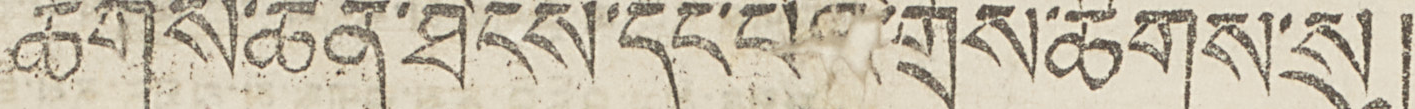ཚོགས་ཆེན་ཐེངས་དང་པོའི་གྲོས་ཚོགས་སུ།
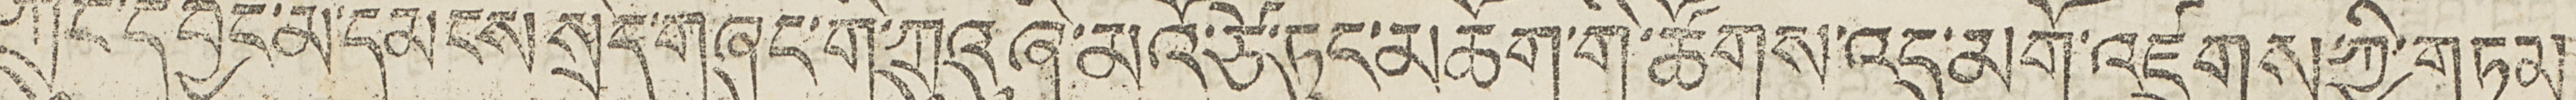ཀྲུང་དབྱང་མི་དམངས་སྲིད་གཞུང་གི་ཀྲུའུ ཞི་མའོ་ཙེ་ཏུང་མཆོག་གི་ཚོགས་འདུ་མགོ་འཛུགས་ཀྱི་གཏམ
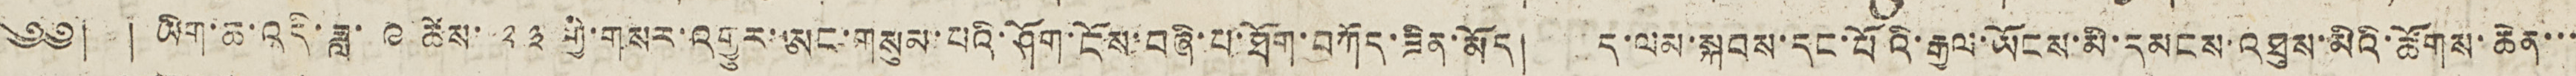༄༅། །ཡིག་ཆ་འདི་ཟླ་ ༩ ཚེས་ ༢༣ གྱི་གསར་འགྱུར་ཨང་གསུམ་བའི་ཤོག་ངོས་བཞི་པ་ཐོག་བཀོད་ཟིན་མོད། ད་ལམ་སྐབས་དང་པོའི་རྒྱལ་ཡོངས་མི་དམངས་འཐུས་མིའི་ཚོགས་ཆེན་་་
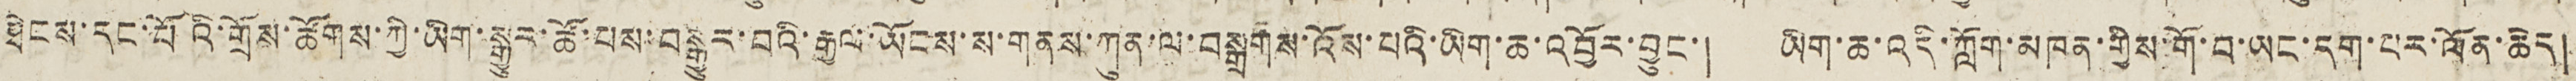ཐེངས་དང་པོའི་གྲོས་ཚོགས་ཀྱི་ཡིག་སྒྱུར་ཚོ་བས་བསྒྱུར་བའི་རྒྱལ་ཡོངས་ས་གནས་ཀུན་ལ་བསྒྲགས་འོས་པའི་ཡིག་ཆ་འབྱོར་བྱུང་། ཡིག་ཆ་འདི་ཀློག་མཁན་གྱིས་གོ་བ་ཡང་དག་པར་ལོན་ཆེད།
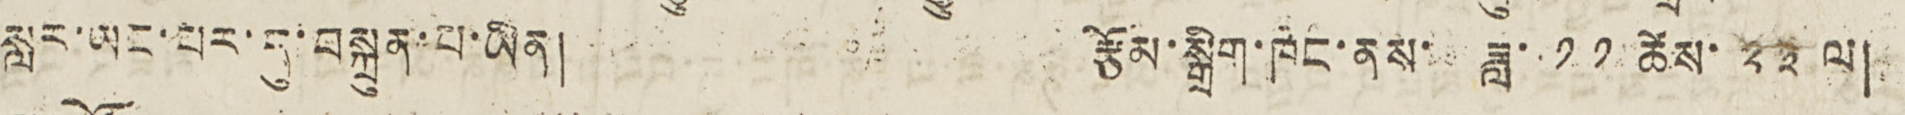སླར་ཡང་པར་དུ་བསྐྲུན་པ་ཡིན། རྩོམ་སྒྲིག་ཁང་ནས་ ཟླ་ ༡༡ ཚེས་ ༢༣ ལ།
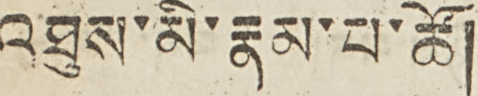འཐུས་མི་རྣམ་པ་ཚོ།
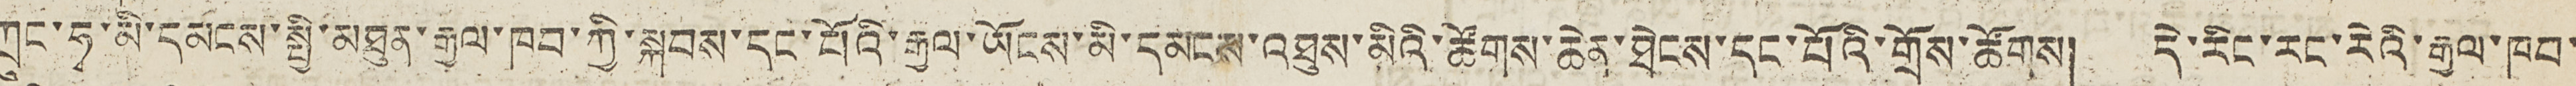ཀྲུང་ཧྭ་མི་དམངས་སྤྱི་མཐུན་རྒྱལ་ཁབ་ཀྱི་སྐབས་དང་པོའི་རྒྱལ་ཡོངས་མི་དམངས་འཐུས་མིའི་ཚོགས་ཆེན་ཐེངས་དང་པོའི་གྲོས་ཚོགས། དེ་རིང་རང་རེའི་རྒྱལ་ཁབ་
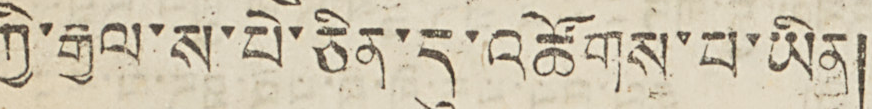ཀྱི་རྒྱལ་ས་པེ་ཅིན་དུ་འཚོགས་པ་ཡིན།
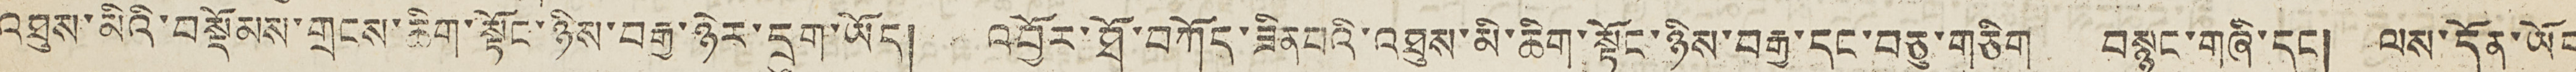འཐུས་མིའི་བསྡོམས་གྲངས་ཆིག་སྟོང་ཉིས་བརྒྱ་ཉེར་དྲུག་ཡོད། འབྱོར་ཐོ་བཀོད་ཟིན པའི་འཐུས་མི་ཆིག་སྟོང་ཉིས་བརྒྱ་དང་བཅུ་གཅིག བསྙུང་གཞི་དང། ལས་དོན་ཡོད
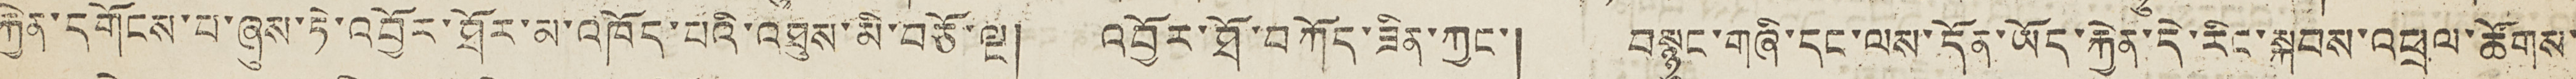རྐྱེན་དགོངས་པ་ཞུས་ཏེ་འབྱོར་ཐོར་མ་འཁོད་པའི་འཐུས་མི་བཅོ་ལྔ། འབྱོར་ཐོ་བཀོད་ཟིན་ཀྱང་། བསྙུང་གཞི་དང་ལས་དོན་ཡོད་རྐྱེན་དེ་རིང་སྐབས་འཕྲལ་ཚོགས་
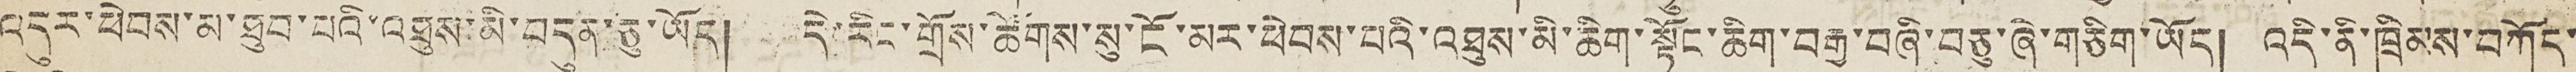འདུར་ཕེབས་མ་ཐུབ་པའི་འཐུས་མི་བདུན་ཅུ་ཡོད། དེ་རིང་གྲོས་ཚོགས་སུ་ངོ་མར་ཕེབས་པའི་འཐུས་མི་ཆིག་སྟོང་ཆིག་བརྒྱ་བཞི་བཅུ་ཞི་གཅིག་ཡོད། འདི་ནི་ཁྲིམས་བཀོད་
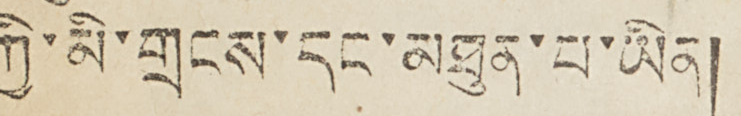ཀྱི་མི་གྲངས་དང་མཐུན་པ་ཡིན།
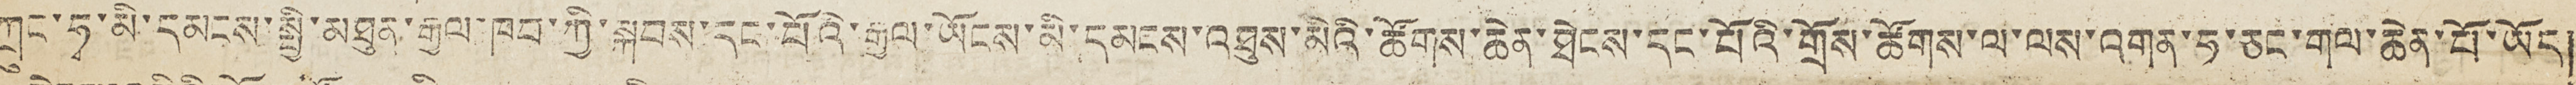ཀྲུང་ཧྭ་མི་དམངས་སྤྱི་མཐུན་རྒྱལ་ཁབ་ཀྱི་སྐབས་དང་པོའི་རྒྱལ་ཡོངས་མི་དམངས་འཐུས་མིའི་ཚོགས་ཆེན་ཐེངས་དང་པོའི་གྲོས་ཚོགས་ལ་ལས་འགན་ཧ་ཅང་གལ་ཆེན་པོ་ཡོད།
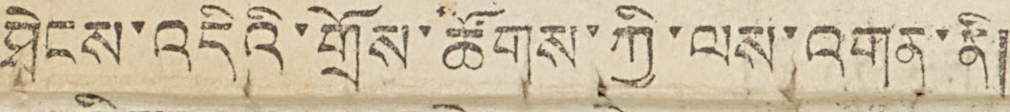ཐེངས་འདིའི་གྲོས་ཚོགས་ཀྱི་ལས་འགན་ནི།
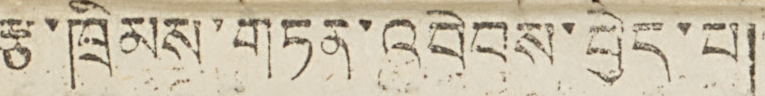རྩ་ཁྲིམས་གཏན་འབེབས་བྱེད་པ།
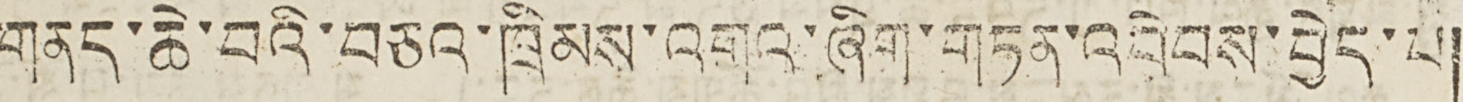གནད་ཆེ་བའི་བཅའ་ཁྲིམས་འགའ་ཞིག་གཏན་འབེབས་བྱེད་པ།
